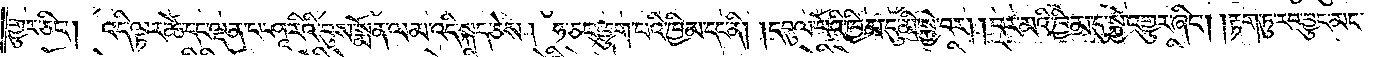གྱུར་ཅིང༌། འདི་ལྟར་ཚེ་དང་ལྡན་པ་ཤཱ་རིའི་བུས་སྨོན་ལམ་འདི་སྐད་ཅེས། ཧ་ཅང་ཕྱུག་པའི་ཁྱིམ་དང་ནི། །དབུལ་པོའི་ཁྱིམ་དུ་མི་སྐྱེ་བར། །བར་མའི་ཁྱིམ་དུ་སྐྱེ་འགྱུར་ཞིང༌། །རྟག་ཏུ་རབ་བྱུང་མང་
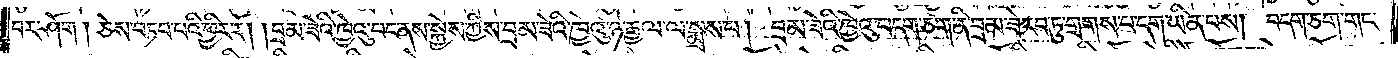བར་ཤོག། ཅེས་བཏབ་པའི་ཕྱིར་རོ། །བྲམ་ཟེའི་ཁྱེའུ་བང་ནས་སྐྱེས་ཀྱིས་བྲམ་ཟེའི་ཁྱེའུ་ཉེ་རྒྱལ་ལ་སྨྲས་པ། བྲམ་ཟེའི་ཁྱེའུ་བདག་ཅག་ནི་བྲམ་ཟེ་རབ་ཏུ་གྲགས་པ་དག་ཡིན་པས། བདག་ཅག་གང་
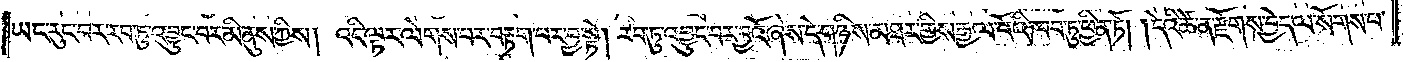ཡང་རུང་བར་རབ་ཏུ་འབྱུང་བར་མི་ནུས་ཀྱིས། འདི་ལྟར་ལེགས་པར་བརྟག་པར་བྱ་སྟེ། རབ་ཏུ་འབྱུང་བར་བྱའོ་ཞེས་དེ་གཉིས་མཐར་གྱིས་རྒྱལ་པོའི་ཁབ་ཏུ་ཕྱིན་ཏོ། །དེའི་ཚེ་ན་རྫོགས་བྱེད་ལ་སོགས་པ་
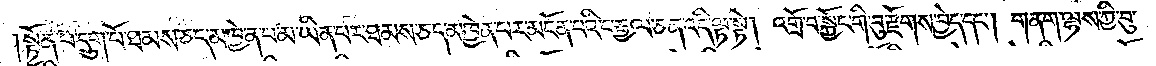སྟོན་པ་དྲུག་པོ་ཐམས་ཅད་མཁྱེན་པ་མ་ཡིན་པར་ཐམས་ཅད་མཁྱེན་པར་མངོན་པའི་ང་རྒྱལ་ཅན་འདི་ལྟ་སྟེ། འགྲོ་བ་སྐྱོང་གི་བུ་རྫོགས་བྱེད་དང༌། གནག་ལྷས་ཀྱི་བུ་
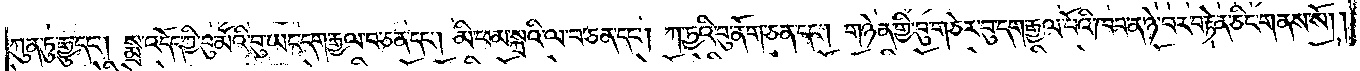ཀུན་ཏུ་རྒྱུ་དང༌། སྨྲ་འདོད་ཀྱི་བུ་མོའི་བུ་ཡང་དག་རྒྱལ་བ་ཅན་དང༌། མི་ཕམ་སྐྲའི་ལ་བ་ཅན་དང༌། ཀ་ཏྱའི་བུ་ནོག་ཅན་དང༌། གཉེན་གྱི་བུ་གཅེར་བུ་དག་རྒྱལ་པོའི་ཁབ་ན་ཉེ་བར་བརྟེན་ཅིང་གནས་སོ། །
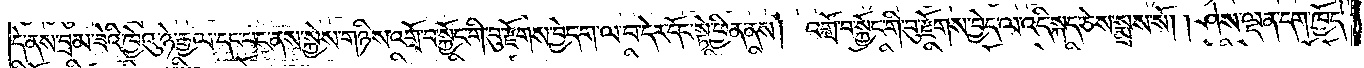དེ་ནས་བྲམ་ཟེའི་ཁྱེའུ་ཉེ་རྒྱལ་དང་པང་ནས་སྐྱེས་གཉིས་འགྲོ་བ་སྐྱོང་གི་བུ་རྫོགས་བྱེད་ག་ལ་བ་དེར་དོང་སྟེ་ཕྱིན་ནས། འགྲོ་བ་སྐྱོང་གི་བུ་རྫོགས་བྱེད་ལ་འདི་སྐད་ཅེས་སྨྲས་སོ། །ཤེས་ལྡན་དག་ཁྱོད་
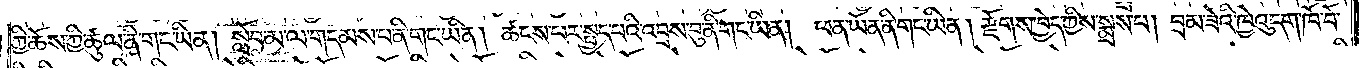ཀྱི་ཆོས་ཀྱི་ཚུལ་ནི་གང་ཡིན། སློབ་མ་ལ་གདམས་པ་ནི་གང་ཡིན། ཚངས་པར་སྤྱད་པའི་འབྲས་བུ་ནི་གང་ཡིན། ཕན་ཡོན་ནི་གང་ཡིན། རྫོགས་བྱེད་ཀྱིས་སྨྲས་པ། བྲམ་ཟེའི་ཁྱེའུ་དག་ཁོ་བོ་
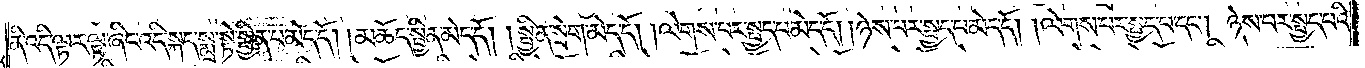ནི་འདི་ལྟར་ལྟ་ཞིང་འདི་སྐད་སྨྲ་སྟེ་སྦྱིན་པ་མེད་དོ། །མཆོད་སྦྱིན་མེད་དོ། །སྦྱིན་སྲེག་མེད་དོ། །ལེགས་པར་སྤྱད་པ་མེད་དོ། །ཉེས་པར་སྤྱད་པ་མེད་དོ། །ལེགས་པར་སྤྱད་པ་དང༌། ཉེས་པར་སྤྱད་པའི་
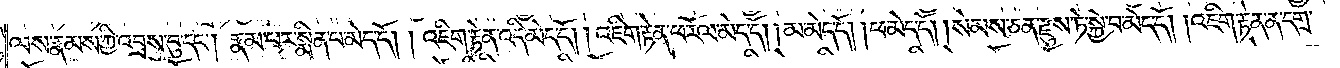ལས་རྣམས་ཀྱི་འབྲས་བུ་དང༌། རྣམ་པར་སྨིན་པ་མེད་དོ། །འཇིག་རྟེན་འདི་མེད་དོ། །འཇིག་རྟེན་ཕ་རོལ་མེད་དོ། །མ་མེད་དོ། །ཕ་མེད་དོ། །སེམས་ཅན་རྫུས་ཏེ་སྐྱེ་བ་མེད་དོ། །འཇིག་རྟེན་ན་དགྲ་
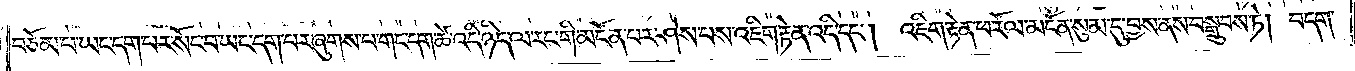བཅོམ་པ་ཡང་དག་པར་སོང་བ་ཡང་དག་པར་ཞུགས་པ་གང་དག་ཚེ་འདི་ཉིད་ལ་རང་གི་མངོན་པར་ཤེས་པས་འཇིག་རྟེན་འདི་དང༌། འཇིག་རྟེན་ཕ་རོལ་མངོན་སུམ་དུ་བྱས་ནས་བསྒྲུབས་ཏེ། བདག་
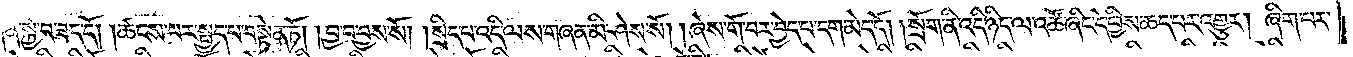སྐྱེ་བ་ཟད་དོ། །ཚངས་པར་སྤྱད་པ་བསྟེན་ཏོ། །བྱ་བ་བྱས་སོ། །སྲིད་པ་འདི་ལས་གཞན་མི་ཤེས་སོ། །ཞེས་གོ་བར་བྱེད་པ་དག་མེད་དོ། །སྲོག་ནི་འདི་ཉིད་ལ་འཚོ་ཞིང་དེ་ཕྱིས་ཆད་པར་འགྱུར། ཞིག་པར་
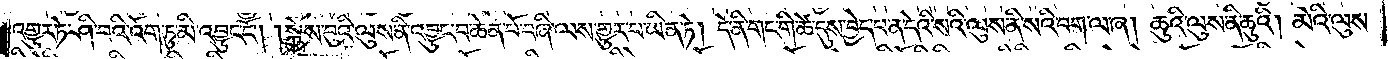འགྱུར་ཏེ་ཤི་བའི་འོག་ཏུ་མི་འབྱུང་ངོ༌། །སྐྱེས་བུའི་ལུས་ནི་འབྱུང་བ་ཆེན་པོ་བཞི་ལས་གྱུར་པ་ཡིན་ཏེ། དེ་ནི་གང་གི་ཚེ་དུས་བྱེད་པ་ན་དེའི་སའི་ལུས་ནི་སའི་བག་ལ་ཞ། ཆུའི་ལུས་ནི་ཆུའི། མེའི་ལུས་
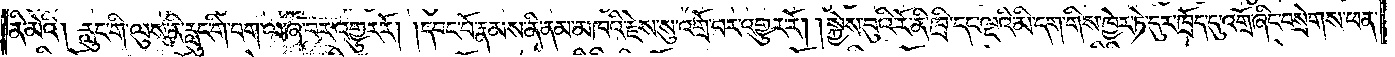ནི་མེའི། རླུང་གི་ལུས་ནི་རླུང་གི་བག་ལ་ཞ་བར་འགྱུར་རོ། །དབང་པོ་རྣམས་ནི་ནམ་མཁའི་རྗེས་སུ་འགྲོ་བར་འགྱུར་རོ། །སྐྱེས་བུའི་རོ་ནི་ཁྲི་དང་ལྔའི་མི་དག་གིས་ཁྱེར་ཏེ་དུར་ཁྲོད་དུ་འགྲོ་ཞིང་བསྲེགས་ཕན་
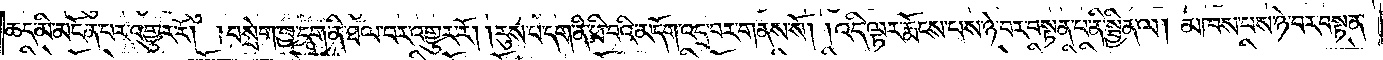ཆད་མི་མངོན་པར་འགྱུར་རོ། །བསྲེག་བྱ་དག་ནི་ཐལ་བར་འགྱུར་རོ། །རུས་པ་དག་ནི་ཐི་བའི་མདོག་འདྲ་བར་གནས་སོ། །འདི་ལྟར་རྨོངས་པས་ཉེ་བར་བསྟན་པ་ནི་སྦྱིན་ལ། མཁས་པས་ཉེ་བར་བསྟན་
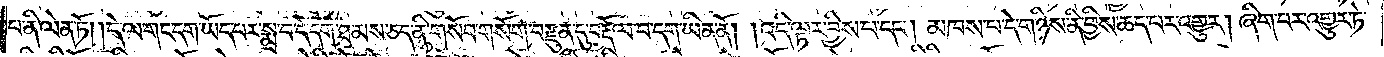པ་ནི་ལེན་ཏོ། །དེ་ལ་གང་དག་ཡོད་པར་སྨྲ་བ་དེ་དག་ཐམས་ཅད་ནི་གསོབ་གསོག་བརྫུན་དུ་བརྡོལ་བ་དག་ཡིན་ནོ། །འདི་ལྟར་བྱིས་པ་དང༌། མཁས་པ་དེ་གཉིས་ནི་ཕྱིས་ཆད་པར་འགྱུར། ཞིག་པར་འགྱུར་ཏེ་
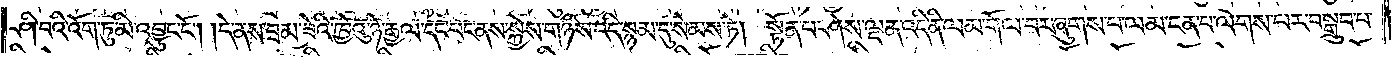ཤི་བའི་འོག་ཏུ་མི་འབྱུང་ངོ༌། །དེ་ནས་བྲམ་ཟེའི་ཁྱེའུ་ཉེ་རྒྱལ་དང་པང་ནས་སྐྱེས་གཉིས་འདི་སྙམ་དུ་སེམས་ཏེ། སྟོན་པ་ཤེས་ལྡན་འདི་ནི་ལམ་གོལ་བར་ཞུགས་པ་ལམ་ངན་པ་ལེགས་པར་བསྒྲུབ་པ་
